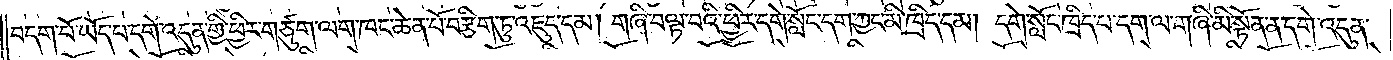བདག་པོ་ཡོད་པ་དགེ་འདུན་གྱི་ཕྱིར་གཙུག་ལག་ཁང་ཆེན་པོ་བརྩིག་ཏུ་འཇུད་དམ། གཞི་བལྟ་བའི་ཕྱིར་དགེ་སློང་དག་ཀྱང་མི་ཁྲིད་དམ། དགེ་སློང་ཁྲིད་པ་དག་ལ་གཞི་མི་སྟོན་ན་དགེ་འདུན་
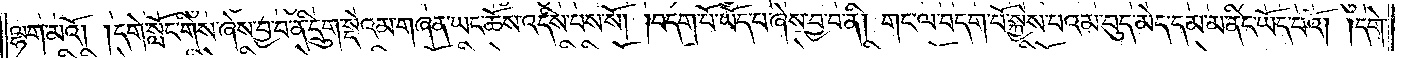ལྷག་མའོ། །དགེ་སློང་གིས་ཞེས་བྱ་བ་ནི་དྲུག་སྡེའམ་གཞན་ཡང་ཆོས་འདིས་པས་སོ། །བདག་པོ་ཡོད་པ་ཞེས་བྱ་བ་ནི། གང་ལ་བདག་པོ་སྐྱེས་པའམ་བུད་མེད་དམ་མ་ནིང་ཡོད་པའོ། །དགེ་
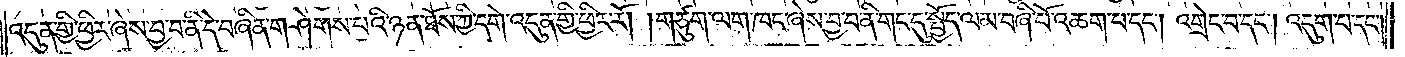འདུན་གྱི་ཕྱིར་ཞེས་བྱ་བ་ནི་དེ་བཞིན་གཤེགས་པའི་ཉན་ཐོས་ཀྱི་དགེ་འདུན་གྱི་ཕྱིར་རོ། །གཙུག་ལག་ཁང་ཞེས་བྱ་བ་ནི་གང་དུ་སྤྱོད་ལམ་བཞི་པོ་འཆག་པ་དང༌། འགྲེང་བ་དང༌། འདུག་པ་དང༌།
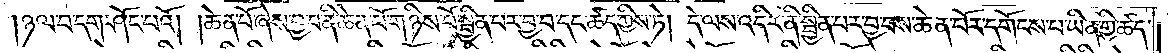ཉལ་བ་དག་ཤོང་པའོ། །ཆེན་པོ་ཞེས་བྱ་བ་ནི་ཆེན་པོ་གཉིས་པོ་སྦྱིན་པར་བྱ་བ་དང་ཚད་ཀྱིས་ཏེ། དེ་ལས་འདིར་ནི་སྦྱིན་པར་བྱ་བས་ཆེན་པོར་དགོངས་པ་ཡིན་གྱི་ཚད་
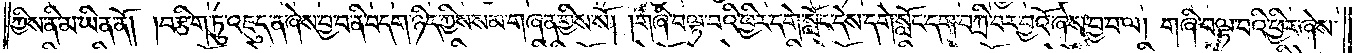ཀྱིས་ནི་མ་ཡིན་ནོ། །བརྩིག་ཏུ་འཇུད་ན་ཞེས་བྱ་བ་ནི་བདག་ཉིད་ཀྱིས་སམ་གཞན་གྱིས་སོ། །གཞི་བལྟ་བའི་ཕྱིར་དགེ་སློང་དེས་དགེ་སློང་དག་བཀྲི་བར་བྱའོ་ཞེས་བྱ་བ་ལ། གཞི་བལྟ་བའི་ཕྱིར་ཞེས་
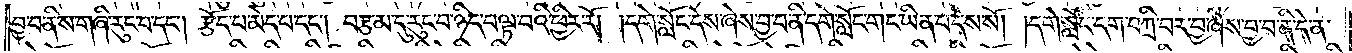བྱ་བ་ནི་ས་གཞི་རུང་བ་དང༌། རྩོད་པ་མེད་པ་དང༌། བརྩམ་དུ་རུང་བ་ཉིད་བལྟ་བའི་ཕྱིར་རོ། །དགེ་སློང་དེས་ཞེས་བྱ་བ་ནི་དགེ་སློང་གང་ཡིན་པ་དེས་སོ། །དགེ་སློང་དག་བཀྲི་བར་བྱ་ཞེས་བྱ་བ་ནི་དེ་ན་
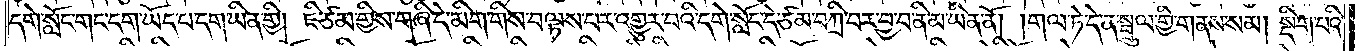དགེ་སློང་གང་དག་ཡོད་པ་དག་ཡིན་གྱི། ཇི་ཙམ་གྱིས་གཞི་དེ་མིག་གིས་བལྟས་པར་འགྱུར་པའི་དགེ་སློང་དེ་ཙམ་བཀྲི་བར་བྱ་བ་ནི་མ་ཡིན་ནོ། །གལ་ཏེ་དེ་ན་སྦྲུལ་གྱི་གནས་སམ། སྡིག་པའི་
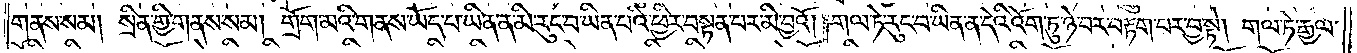གནས་སམ། སྲིན་གྱི་གནས་སམ། གྲོག་མའི་གནས་ཡོད་པ་ཡིན་ན་མི་རུང་བ་ཡིན་པའི་ཕྱིར་བསྟན་པར་མི་བྱའོ། །གལ་ཏེ་རུང་བ་ཡིན་ན་དེའི་འོག་ཏུ་ཉེ་བར་བརྟག་པར་བྱ་སྟེ། གལ་ཏེ་རྒྱལ་
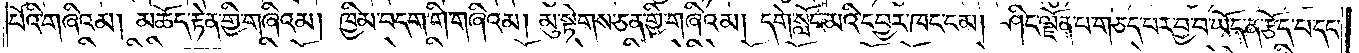པོའི་གཞིའམ། མཆོད་རྟེན་གྱི་གཞིའམ། ཁྱིམ་བདག་གི་གཞིའམ། མུ་སྟེགས་ཅན་གྱི་གཞིའམ། དགེ་སློང་མའི་དབྱར་ཁང་ངམ། ཤིང་ལྗོན་པ་གཅད་པར་བྱ་བ་ཡོད་ན་རྩོད་པ་དང་
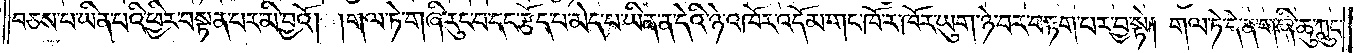བཅས་པ་ཡིན་པའི་ཕྱིར་བསྟན་པར་མི་བྱའོ། །གལ་ཏེ་གཞི་རུང་བ་དང་རྩོད་པ་མེད་པ་ཡིན་ན་དེའི་ཉེ་འཁོར་འདོམ་གང་ཁོ་ར་ཁོར་ཡུག་ཉེ་བར་བརྟག་པར་བྱ་སྟེ། གལ་ཏེ་དེ་ན་གཞི་ཆུ་ཀླུང་
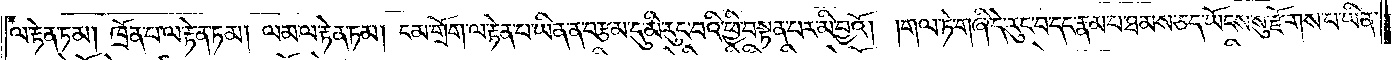ལ་རྟེན་ཏམ། ཁྲོན་པ་ལ་རྟེན་ཏམ། ལམ་ལ་རྟེན་ཏམ། ངམ་གྲོག་ལ་རྟེན་པ་ཡིན་ན་བརྩམ་དུ་མི་རུང་བའི་ཕྱི་བསྟན་པར་མི་བྱའོ། །གལ་ཏེ་གཞི་དེ་རུང་བ་དང་རྣམ་པ་ཐམས་ཅད་ཡོངས་སུ་རྫོགས་པ་ཡིན་
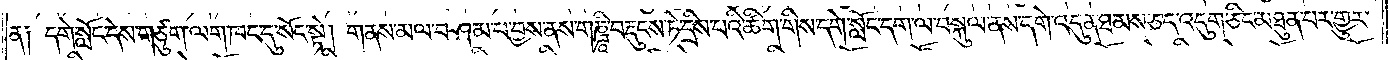ན༑ དགེ་སློང་དེས་གཙུག་ལག་ཁང་དུ་སོང་སྟེ། གནས་མལ་བཤམ་པ་བྱས་ནས་གཎྜཱི་བརྡུངས་ཏེ་དྲིས་པའི་ཚིག་གིས་དགེ་སློང་དག་ལ་བསྐུལ་ནས་དགེ་འདུན་ཐམས་ཅད་འདུག་ཅིང་མཐུན་པར་གྱུར་
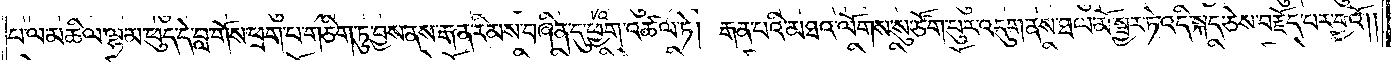པ་ལ་མཆིལ་ལྷམ་ཕུད་དེ་བླ་གོས་ཕྲག་པ་གཅིག་ཏུ་བྱས་ནས་རྒན་རིམས་བཞིན་དུ་ཕྱག་འཚལ་ཏེ། རྒན་པའི་མཐའ་ལོགས་སུ་ཙོག་པུར་འདུག་ནས་ཐལ་མོ་སྦྱར་ཏེ་འདི་སྐད་ཅེས་བརྗོད་པར་བྱའོ༎
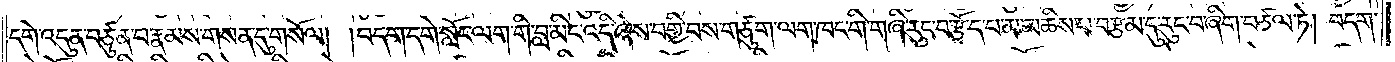དགེ་འདུན་བཙུན་པ་རྣམས་གསན་དུ་གསོལ། །བདག་དགེ་སློང་ལག་གི་བླ་མིང་འདི་ཞེས་བགྱི་བས་གཙུག་ལག་ཁང་གི་གཞི་རུང་བ་རྩོད་པ་མ་མཆིས་པ་བརྩམ་དུ་རུང་བ་ཞིག་བཙལ་ཏེ། བདག་
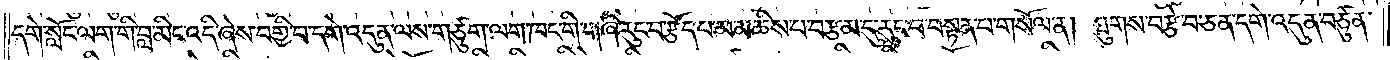དགེ་སློང་ལག་གི་བླ་མིང་འདི་ཞེས་བགྱི་བ་དགེ་འདུན་ལས་གཙུག་ལག་ཁང་གི་གཞི་རུང་བ་རྩོད་པ་མ་མཆིས་པ་བརྩམ་དུ་རུང་བ་བསྟན་པ་གསོལ་ན། ཐུགས་བརྩེ་བ་ཅན་དགེ་འདུན་བཙུན་
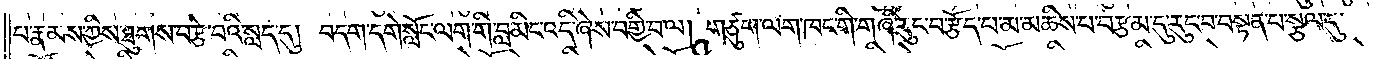པ་རྣམས་ཀྱིས་ཐུགས་བརྩེ་བའི་སླད་དུ། བདག་དགེ་སློང་ལག་གི་བླ་མིང་འདི་ཞེས་བགྱི་བ་ལ། གཙུག་ལག་ཁང་གི་གཞི་རུང་བ་རྩོད་པ་མ་མཆིས་པ་བརྩམ་དུ་རུང་བ་བསྟན་པ་སྩལ་དུ་
